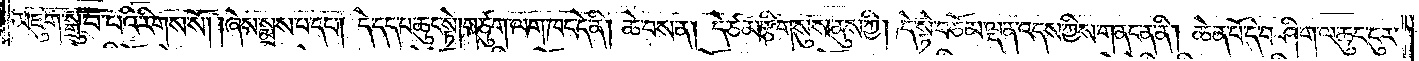མཇུག་སྒྲུབ་པའི་རིགས་སོ། །ཞེས་སྨྲས་པ་དང༌། དེ་དད་པ་ཆུང་སྟེ། གཙུག་ལག་ཁང་དེ་ནི། ཆེ་བས་ན། དེ་ཙམ་རྩིག་སུས་ནུས་ཀྱི། དེ་སྟེ་བཅོམ་ལྡན་འདས་ཀྱིས་གནང་ན་ནི། ཆེན་པོ་དེ་བཤིག་ལ་ཆུང་ངུར་
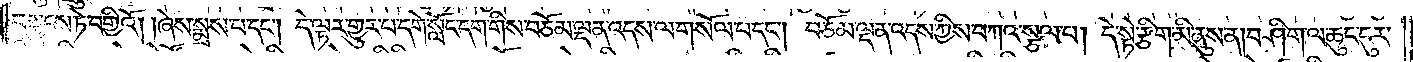བསྐྱུངས་ཏེ་བགྱིའོ། །ཞེས་སྨྲས་པ་དང༌། དེ་ལྟར་གྱུར་པ་དགེ་སློང་དག་གིས་བཅོམ་ལྡན་འདས་ལ་གསོལ་བ་དང༌། བཅོམ་ལྡན་འདས་ཀྱིས་བཀའ་སྩལ་པ། དེ་སྟེ་རྩིག་མི་ནུས་ན། བཤིག་ལ་ཆུང་ངུར་
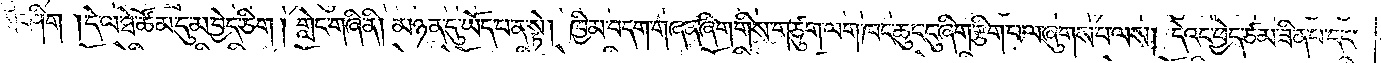གྱིས་ཤིག །དེ་ལ་ཐེ་ཚོམ་དུ་མ་བྱེད་ཅིག །གླེང་གཞི་ནི། མཉན་དུ་ཡོད་པ་ན་སྟེ། ཁྱིམ་བདག་གཞན་ཞིག་གིས་གཙུག་ལག་ཁང་ཆུང་ངུ་ཞིག་རྩིག་པ་ལ་ཞུགས་པ་ལས། དེའང་ཕྱེད་ཙམ་ཟིན་པ་དང་
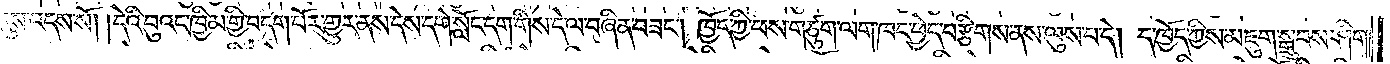དེ་དུས་འདས་སོ། །དེའི་བུའང་ཁྱིམ་གྱི་བདག་པོར་གྱུར་ནས་དེས་དགེ་སློང་དག་གིས་དེ་ལ་བཞིན་བཟང༌། ཁྱོད་ཀྱི་ཕས་གཙུག་ལག་ཁང་ཕྱེད་བརྩིགས་ནས་ལུས་པ་དེ། ད་ཁྱོད་ཀྱིས་མཇུག་སྒྲུབས་ཤིག།
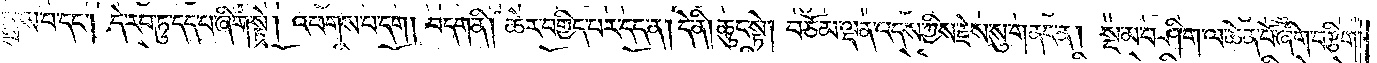ཅེས་སྨྲས་པ་དང༌། དེ་རབ་ཏུ་དད་པ་ཞིག་སྟེ། འཕགས་པ་དག །བདག་ནི། ཆེར་བགྱིད་པར་དད་ན། དེ་ནི། ཆུང་སྟེ། བཅོམ་ལྡན་འདས་ཀྱིས་རྗེས་སུ་གནང་ན། སྔ་མ་བཤིག་ལ་ཆེན་པོ་ཞིག་བརྩིག་
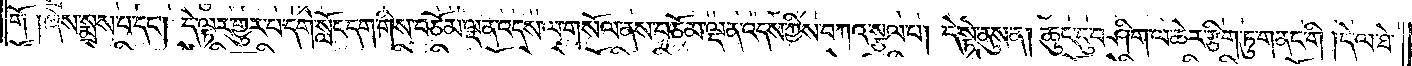གོ །ཞེས་སྨྲས་པ་དང༌། དེ་ལྟར་གྱུར་པ་དགེ་སློང་དག་གིས་བཅོམ་ལྡན་འདས་ལ་གསོལ་ནས་བཅོམ་ལྡན་འདས་ཀྱིས་བཀའ་སྩལ་པ། དེ་སྟེ་ནུས་ན། ཆུང་ངུ་བཤིག་ལ་ཆེར་རྩིག་ཏུ་གནང་གི། དེ་ལ་ཐེ་
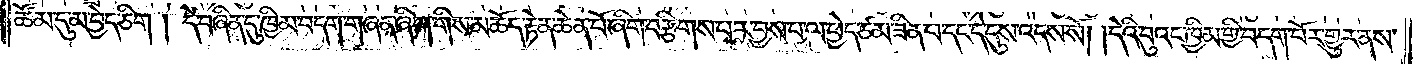ཚོམ་དུ་མ་བྱེད་ཅིག །དེ་བཞིན་དུ་ཁྱིམ་བདག་གཞན་ཞིག་གིས་མཆོད་རྟེན་ཆེན་པོ་ཞིག་བརྩིགས་པར་བྱས་པ་ལ་ཕྱེད་ཙམ་ཟིན་པ་དང་དེ་དུས་འདས་སོ། །དེའི་བུའང་ཁྱིམ་གྱི་བདག་པོར་གྱུར་ནས་
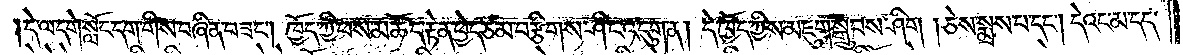དེ་ལ་དགེ་སློང་དག་གིས་བཞིན་བཟང༌། ཁྱོད་ཀྱི་ཕས་མཆོད་རྟེན་ཕྱེད་ཙམ་བརྩིགས་ཤིང་འདུག་ན། དེ་ཁྱོད་ཀྱིས་མཇུག་སྒྲུབས་ཤིག །ཅེས་སྨྲས་པ་དང༌། དེའང་མ་དད་
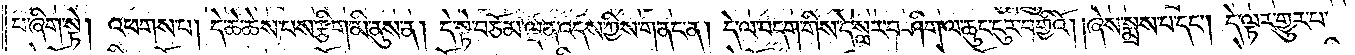པ་ཞིག་སྟེ། འཕགས་པ། དེ་ཆེ་ཆེས་པས་རྩིག་མི་ནུས་ན། དེ་སྟེ་བཅོམ་ལྡན་འདས་ཀྱིས་གནང་ན། དེ་ལ་བདག་གིས་དེ་སླར་བཤིག་ལ་ཆུང་ངུར་བགྱིའོ། །ཞེས་སྨྲས་པ་དང༌། དེ་ལྟར་གྱུར་པ་
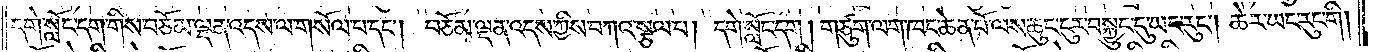དགེ་སློང་དག་གིས་བཅོམ་ལྡན་འདས་ལ་གསོལ་པ་དང༌། བཅོམ་ལྡན་འདས་ཀྱིས་བཀའ་སྩལ་པ། དགེ་སློང་དག །གཙུག་ལག་ཁང་ཆེན་པོ་ལས་ཆུང་ངུར་བསྐྱུང་དུ་ཡང་རུང༌། ཆེར་ཡང་རུང་གི།
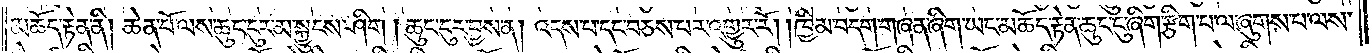མཆོད་རྟེན་ནི། ཆེན་པོ་ལས་ཆུང་ངུར་མ་སྐྱུངས་ཤིག །ཆུང་ངུར་བྱས་ན། འདས་པ་དང་བཅས་པར་འགྱུར་རོ། །ཁྱིམ་བདག་གཞན་ཞིག་ཡང་མཆོད་རྟེན་ཆུང་ངུ་ཞིག་རྩིག་པ་ལ་ཞུགས་པ་ལས་
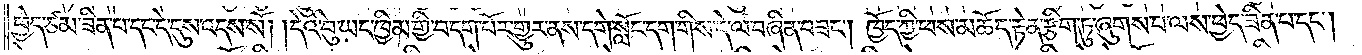ཕྱེད་ཙམ་ཟིན་པ་དང་དེ་དུས་འདས་སོ། །དེའི་བུ་ཡང་ཁྱིམ་གྱི་བདག་པོར་གྱུར་ནས་དགེ་སློང་དག་གིས་དེ་ལ་བཞིན་བཟང༌། ཁྱོད་ཀྱི་ཕས་མཆོད་རྟེན་རྩིག་ཏུ་ཞུགས་པ་ལས་ཕྱེད་ཟིན་པ་དང༌།
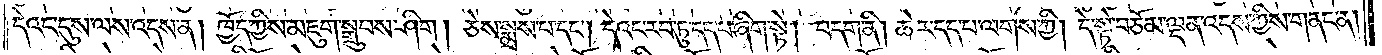དེའང་དུས་ལས་འདས་ན། ཁྱོད་ཀྱིས་མཇུག་སྒྲུབས་ཤིག །ཅེས་སྨྲས་པ་དང༌། དེའང་རབ་ཏུ་དད་པ་ཞིག་སྟེ། བདག་ནི། ཆེར་དད་པ་ལགས་ཀྱི། དེ་སྟེ་བཅོམ་ལྡན་འདས་ཀྱིས་གནང་ན།
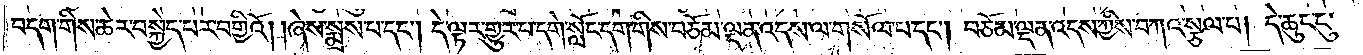བདག་གིས་ཆེར་བསྐྱེད་པར་བགྱིའོ། །ཞེས་སྨྲས་པ་དང༌། དེ་ལྟར་གྱུར་པ་དགེ་སློང་དག་གིས་བཅོམ་ལྡན་འདས་ལ་གསོལ་པ་དང༌། བཅོམ་ལྡན་འདས་ཀྱིས་བཀའ་སྩལ་པ། དེ་ཆུང་ངུ་
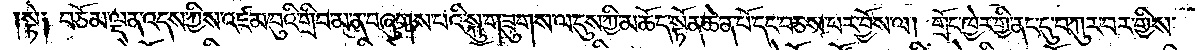སྟེ༑ བཅོམ་ལྡན་འདས་ཀྱིས་འཛམ་བུའི་གྲིབ་མ་ན་བཞུགས་པའི་སྐུ་གཟུགས་ལ་དུས་ཀྱི་མཆོད་སྟོན་ཆེན་པོ་དང་བཅས་པར་བྱོས་ལ། གྲོང་ཁྱེར་གྱི་ནང་དུ་བཀུར་བར་གྱིས་
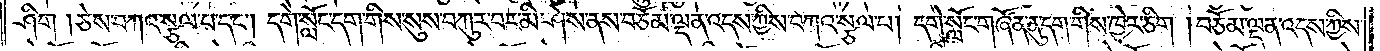ཤིག །ཅེས་བཀའ་སྩལ་པ་དང༌། དགེ་སློང་དག་གིས་སུས་བཀུར་བར་མི་ཤེས་ནས་བཅོམ་ལྡན་འདས་ཀྱིས་བཀའ་སྩལ་པ། དགེ་སློང་གཞོན་ནུ་དག་གིས་ཁྱེར་ཅིག །བཅོམ་ལྡན་འདས་ཀྱིས་
